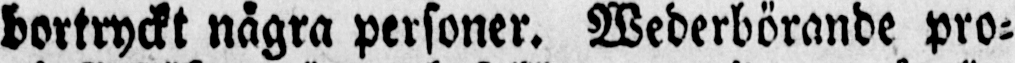bortryckt några personer. Wederbörande pro-
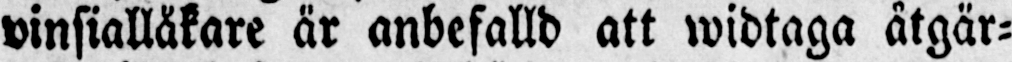vinsialläkare är anbefalld att widtaga åtgär-
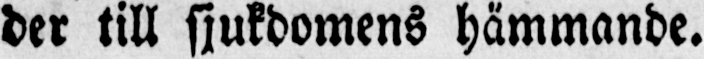der till sjukdomens hämmande.
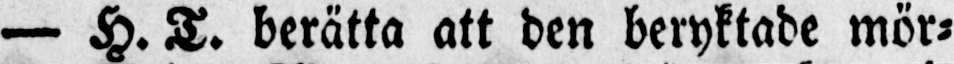— H. T. berätta att den beryktade mör-
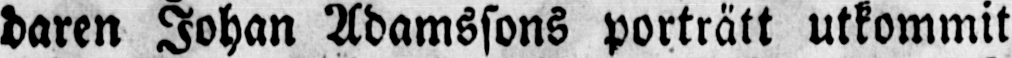daren Johan Adamssons porträtt utkommit
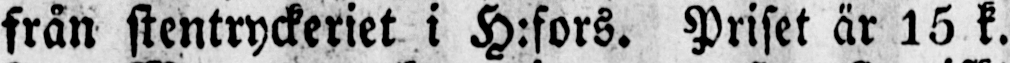från stentryckeriet i H:fors. Priset är 15 k.
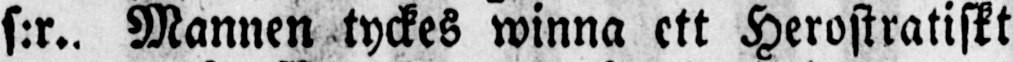s:r. Mannen tyckes winna ett Herostratiskt
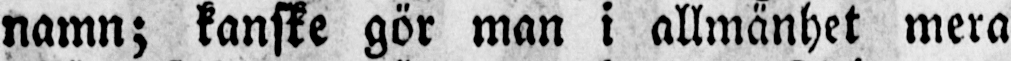namn; kanske gör man i allmänhet mera
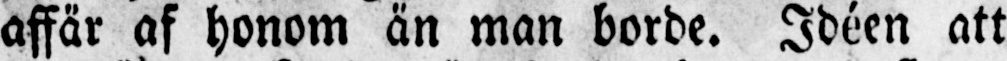affär af honom än man borde. Idéen att
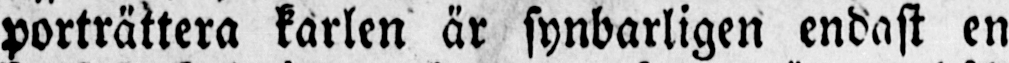porträttera karlen är synbarligen endast en
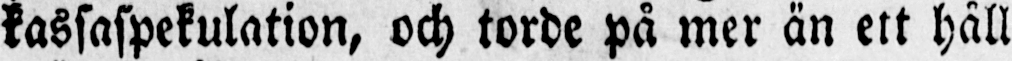kassaspekulation, och torde på mer än ett håll
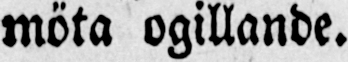möta ogillande.
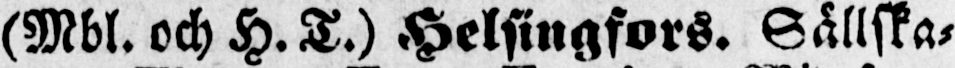(Mbl.och H.T.) Helsingfors. Sällska-
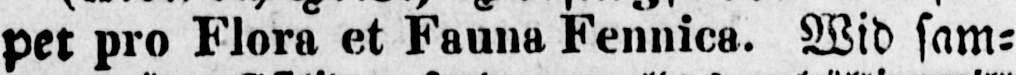pet pro Flora et Fauna Fennica. Wid sam-
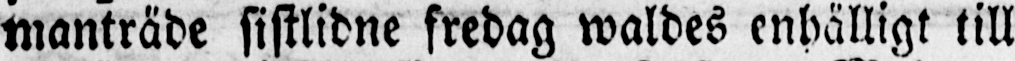manträde sistlidne fredag waldes enhälligt till
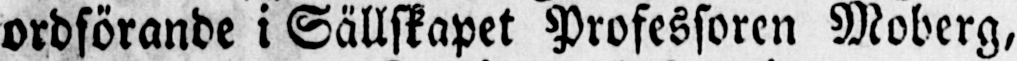ordförande i Sällskapet Professoren Moberg,
